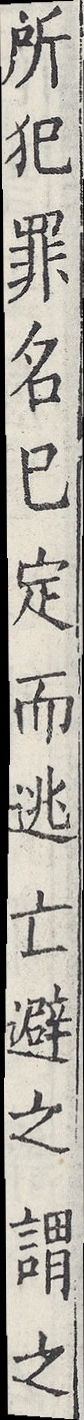所犯罪名已定而逃亡避之謂之
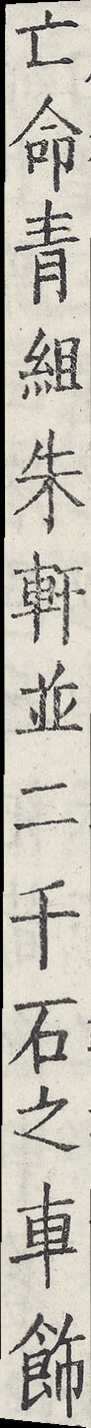亡命青組朱軒並二千石之車飾
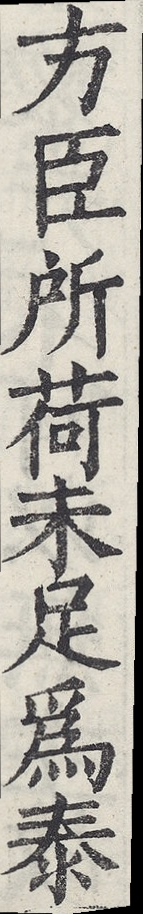方臣所荷未足為泰
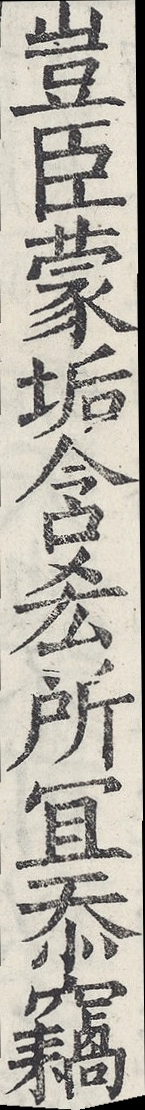豈臣蒙垢含吝所宜忝竊
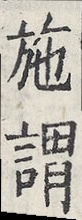施謂
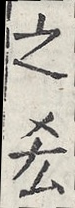之吝
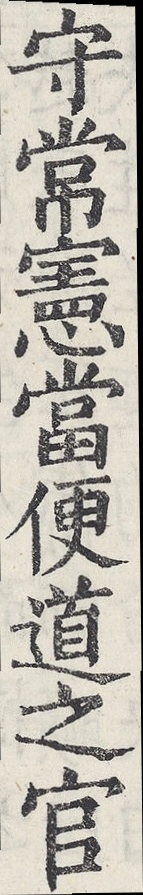守常憲當便道之官
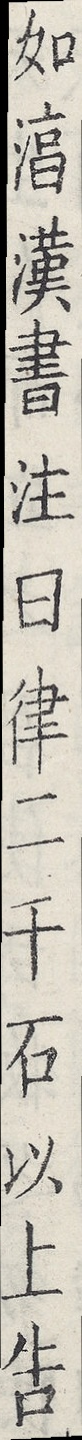如湻漢書注曰律二千石以上告
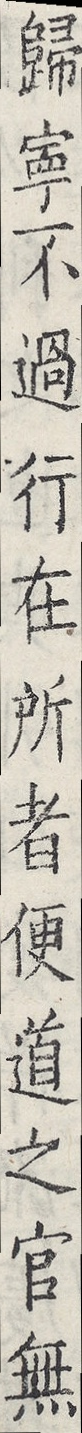歸寕不過行在所者便道之官無
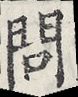問
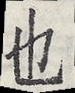也
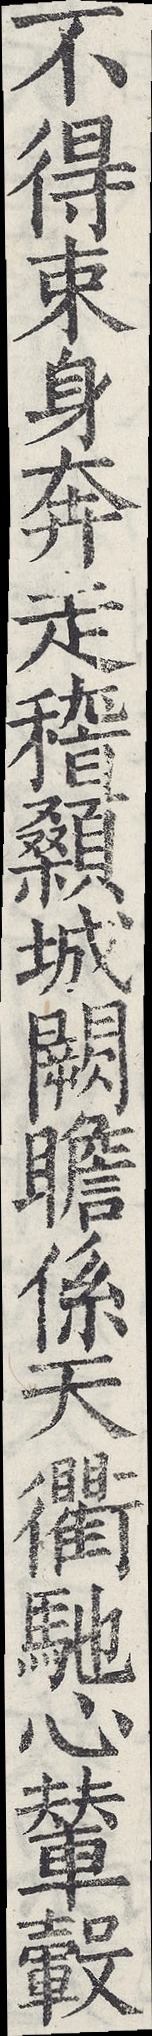不得束身奔走稽顙城闕瞻係天衢馳心輦轂
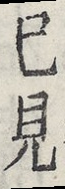已見
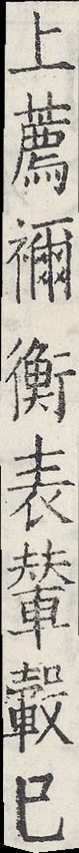上薦禰衡表輦轂已
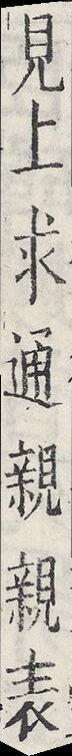見上求通親親表
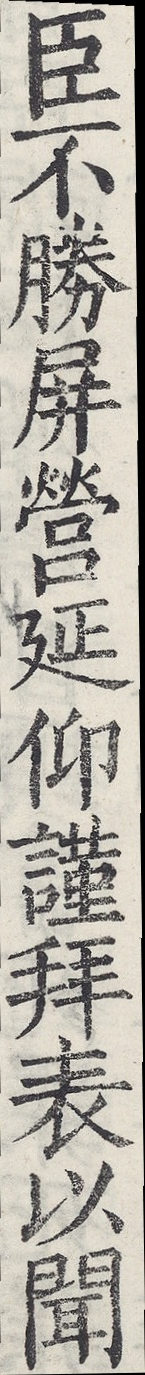臣不勝屏營延仰謹拜表以聞
